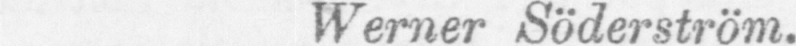Werner Söderström.
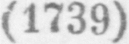(1739)
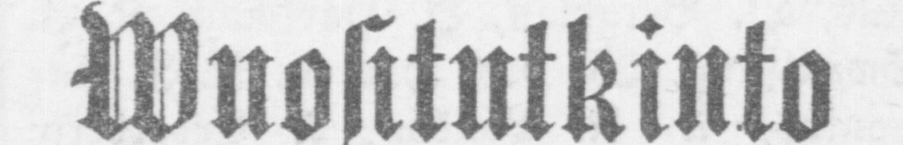Wuositutkinto
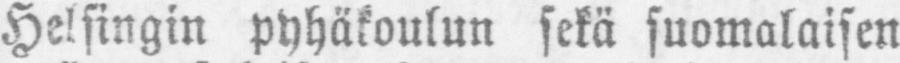Helsingin pyhäkoulun sekä suomalaisen
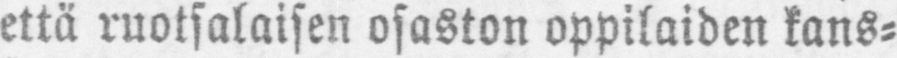että ruotsalaisen osaston oppilaiden kans-
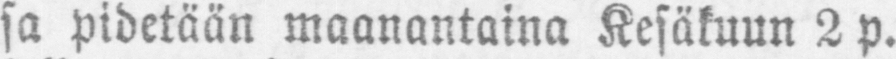sa pidetään maanantaina Kesäkuun 2 p.
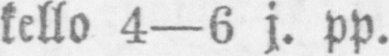kello 4 —6 j. pp.
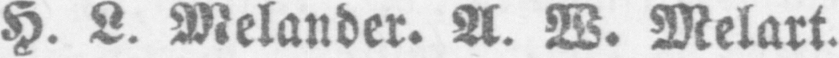H. L. Melander. A. W. Melart.
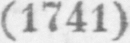(1741)
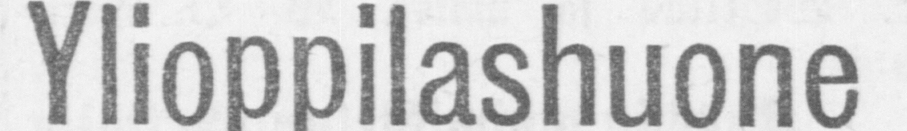Ylioppilashuone
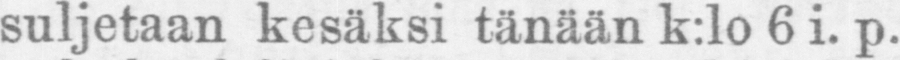suljetaan kesäksi tänään k:lo 6 i. p.
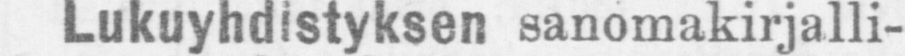Lukuyhdistyksen sanomakirjalli-
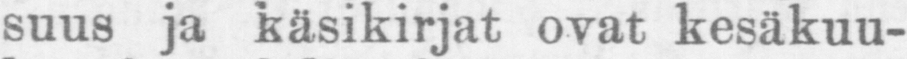suus ja käsikirjat ovat kesäkuu-
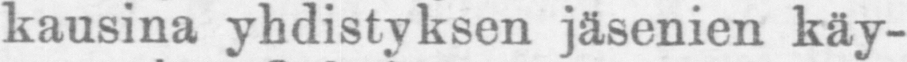kausina yhdistyksen jäsenien käy-
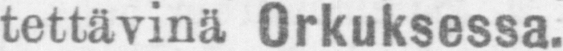tettävinä 0rkuksessa.
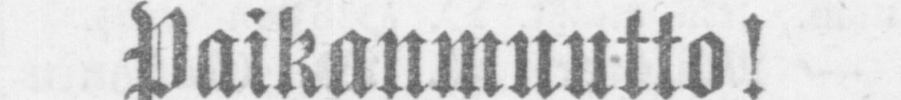Paikanmuutto!
